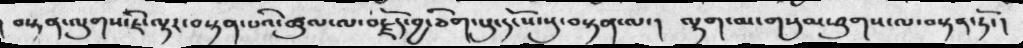བསྟན་ལུགས་ཇི་ལྟར་བསྟན་པའི་ཚུལ་ལ་བརྗོད་བྱ་ཅིག་པུ་དངོས་སུ་བསྟན་ལ་། ལྷག་མ་གསུམ་ཕུགས་ལ་བསྟན་ཏོ་།
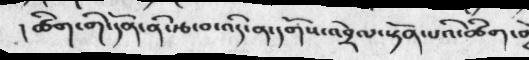།ཚིག་གི་དོན་ནི་རྩ་བ་འདི་ན་དགོས་འབྲེལ་སྟོན་པའི་ཚིག་
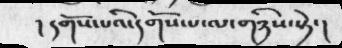།དགོས་པའི་དགོས་པ་ལ་གཉིས་སྟེ་།
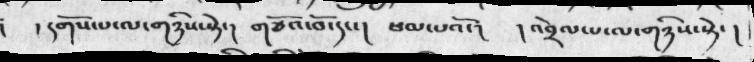། དགོས་པ་ལ་གཉིས་སྟེ་།  གཙོ་བོ་དང་།  སྦམ་པའོ་། །འབྲེལ་པ་ལ་གཉིས་སྟེ་།
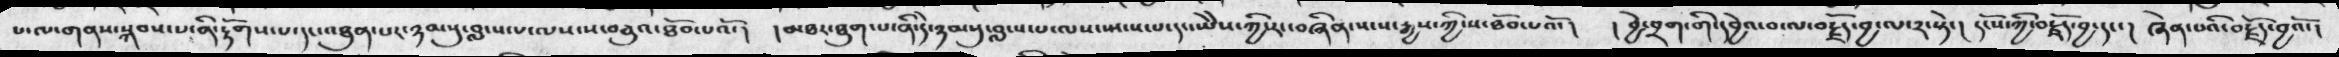པ་ལ་གནས་སྐབས་པ་ནི་རྟོགས་པ་དང་འཐུན་པ་ཉམསུ་བླངས་པ་ལས་ས་བཅུའ་ཐོབ་པའོ་།  །མཐར་ཐུག་པ་ནི་དེ་ཉམསུ་བླངས་པ་ལས་སྤངས་པ་དང་ཡཻས་ཀྱི་རང་བཞིན་སངས་རྒྱས་ཀྱི་ས་ཐོབ་པའོ་། ། བྱེ་བྲག་གི་དབྱེ་བ་ལ་བརྗོད་བྱ་ལ་༢་སྟེ་། དངོས་ཀྱི་བརྗོད་བྱ་དང་། ཞེན་པའི་བརྗོད་བྱའོ་།
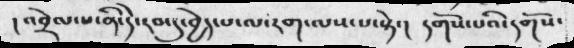།འབྲེལ་པ་ནི་དེ་རབ་དུ་བྱེད་པ་ལ་རག་ལས་པ་སྟེ་། དགོས་པའི་དགོས་
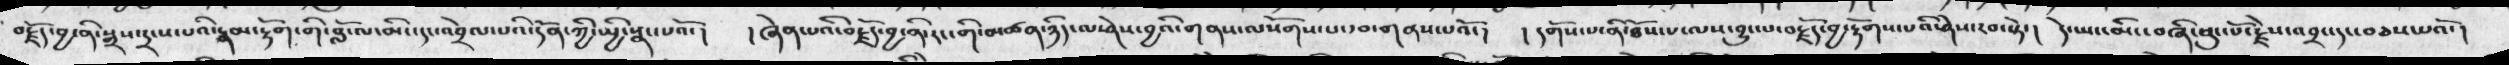བརྗོད་བྱ་ནི་སྒྲས་དྲངས་པའི་རྣམ་རྟོག་གི་བློ་ལ་མིང་དང་འབྲེལ་པའི་དོན་ཀྱི་སྤྱི་སྣང་པའོ་། །ཞེན་པའི་བརྗོད་བྱ་ནི་རང་གི་མཚན་ཉིད་ལ་ཤེས་བྱའི་གནས་ལསོགས་པ་རྩ་གནས་པའོ་། ། དགོས་པ་ནི་ཐོས་པ་ལས་བྱུང་པ་བརྗོད་བྱ་རྟོགས་པའི་ཤེས་རབ་སྟེ་།  དེ་ཡང་མིང་བཞི་ཕུང་པོ་རྗེས་འབྲང་དང་བཅས་པའོ་།
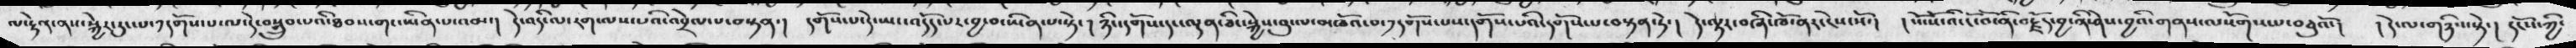ལ་རྟེན་ནས་སྐྱེར་རུང་པ་༡དགོས་པ་ལ་དེ་བསྒྲུབ་པའི་ཐབས་གང་ཡིན་པ་འམ་། དེ་འདི་ལ་རག་ལས་པའི་འབྲེལ་བ་བསྟན་། དགོས་པ་དེ་ཡང་འདོད་པར་བྱ་བ་ཡིན་པ་སྟེ་། ཉིང་དགོས་དང་ལྡན་ཅིང་སྐྱེ་བུ་ལ་མཁོའ་བ་༡དགོས་པས་དགོས་པའི་དགོས་པ་བསྟན་ཏེ་། དེ་ལྟར་བཞི་ཁོ་ནར་ངེས་སོ་། །སོ་སོའི་ངོ་བོ་ནི་བརྗོད་བྱ་ནི་ཤེས་བྱའི་གནས་ལསོགས་པ་བཅུའོ་། །དེ་ལ་གཉིས་སྟེ་། དངོས་ཀྱི་
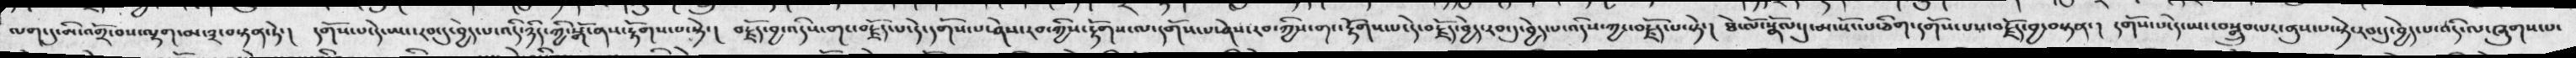ལག་དུ་མི་འགྲོ་བས་ལྷག་མ་༣་བསྟན་ཏེ་།  དགོས་པ་དེ་ཡང་རབ་དུ་བྱེད་པ་འདི་ཉིད་ཀྱི་སྒོ་ནས་རྟོགས་པ་སྟེ་།  བརྗོད་བྱ་འདིས་གང་བརྗོད་པ་དེ་དགོས་པ་ཤེས་རབ་ཀྱིས་རྟོགས་ལ་དགོས་པ་ཤེས་རབ་ཀྱིས་གང་རྟོགས་པ་དེ་བརྗོད་བྱེད་རབ་དུ་བྱེད་པ་འདིས་ཀྱང་བརྗོད་པ་སྟེ་།  ཐེ་ལོ་སྣོལ་དུ་མ་སོང་པ་ཅིག་དགོས་པས་བརྗོད་བྱ་བསྟན་། དགོས་པ་དེ་ཡང་བསྒྲུབ་པར་ནུས་པ་སྟེ་རབ་དུ་བྱེད་པ་འདི་ལ་ཞུགས་པ་
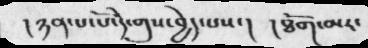།ཉན་པ་པོ་དེ་གུས་བྱེད་པས་།  །ཐོག་མར་
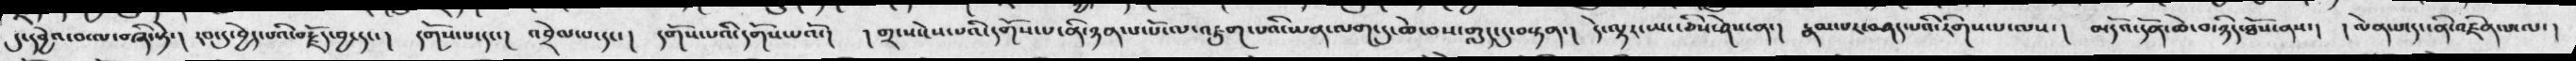དུ་དབྱེའ་བ་ལ་བཞི་སྟེ་། རབ་དུ་བྱེད་པའི་བརྗོད་བྱ་དང་། དགོས་པ་དང་། འབྲེལ་པ་དང་། དགོས་པའི་དགོས་པའོ་། །གྲངས་ངེས་པའི་དགོས་པ་ནི་ཉན་པ་པོ་ལ་འཇུག་པའི་ཡན་ལག་དུ་ཆེ་བས་གླད་དུ་བསྟན་། དེ་ལྟ་ཡང་ཅིས་ཤེས་ན་། རྣམ་པར་བཤད་པའི་རིག་པ་ལས་། མདོའ་དོན་ཆེ་བ་ཉིད་ཐོས་ནས་། །ལེན་པ་དང་ནི་འཛིན་པ་ལ་།
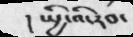།སྤྱི་འི་རབ་
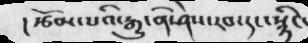།རྩོམ་པའི་རྒྱུ་ནི་ཤེས་རབ་དང་སྙིང་
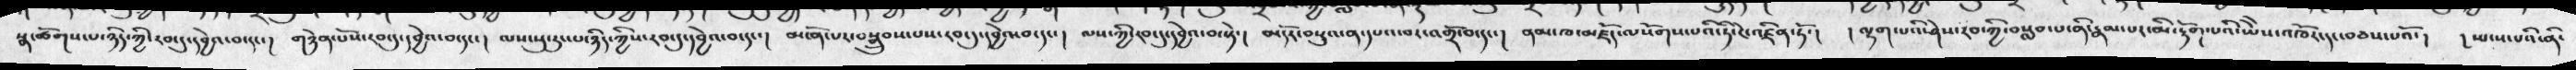སྣ་ཚོགས་པ་ཉིད་ཀྱི་རབ་དུ་དབྱེ་བ་དང་།  གཉེན་པོས་རབ་དུ་དབྱེའ་བ་དང་།  ལས་སུ་རུང་པ་ཉིད་ཀྱིས་རབ་དུ་དབྱེ་བ་དང་།  མངོན་པར་བསྒྲུབས་པས་རབ་དུ་དབྱེའ་བ་དང་།  ལས་ཀྱི་རབ་དུ་དབྱའ་བ་སྟེ་།  མདོར་བསྡུའ་ན་དཔའ་བར་འགྲོ་བ་དང་།  ནམ་ཁ་མཛོད་ལསོགས་པའི་ཏིང་ངེ་འཛིན་ཏོ་།  ། ལྷག་པའི་ཤེས་རབ་ཀྱི་བསླབ་པ་ནི་རྣམ་པར་མི་རྟོག་པའི་ཡེེས་འཁོར་དང་བཅས་པའོ་།  ། སྤངས་པའི་ནི་
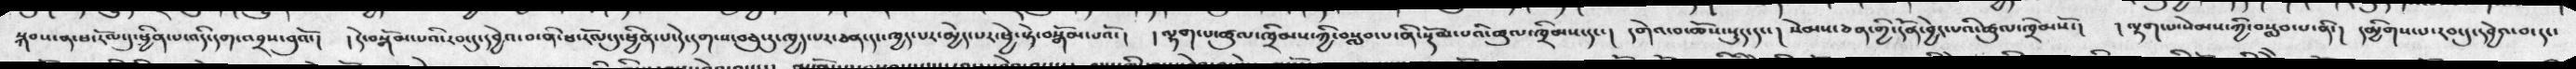སྐབས་ན་ཕ་རོལ་དུ་ཕྱིན་པ་འདི་དག་འབྲས་བུའོ་།   ། དེ་བསྒོམ་པའི་རབ་ཏུ་དབྱེའ་བ་ནི་ཕ་རོལ་དུ་ཕྱིན་པ་དེ་དག་ས་བཅུ་རུ་ཁྱད་པར་ཅན་དང་ཁྱད་པར་མེད་པར་མྱེད་པར་ཕྱེ་སྟེ་བསྒོམ་པའོ་།  ། ལྷག་པ་ཚུལ་ཁྲིམས་ཀྱི་བསླབ་པ་ནི་སྡོམ་པའི་ཚུལ་ཁྲིམས་དང་།   དགེ་བ་ཆོས་སྡུད་དང་   སེམས་ཅན་གྱི་དོན་བྱེད་པའི་ཚུལ་ཁྲིམསོ་།    ། ལྷག་པ་སེམས་ཀྱི་བསླབ་པ་ནི་།   དམྱིགས་པ་རབ་དུ་དབྱེའ་བ་དང་
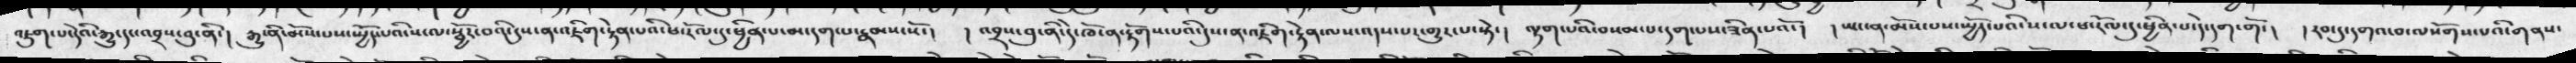འཇུག་པ་དེའི་རྒྱུ་དང་འབྲས་བུ་ནི་།   རྒྱུ་ནི་མོས་པས་ཡྱོད་པའི་ས་ལ་སྦྱོང་བའི་དུས་ན་འཇིག་རྟེན་པའི་ཕ་རོལ་དུ་ཕྱིན་པ་མ་དག་པ་རྣམས་སོ་།  ། འབྲས་བུ་ནི་དེ་ཁོ་རྟོགས་པའི་དུས་ན་འཇིག་རྟེན་ལས་འདས་པར་གྱུར་པ་སྟེ་།   ལྷག་པའི་བསམ་པ་དག་པས་ཟིན་པའོ་།  ཡང་ན་མོས་པས་ཡྱོད་པའི་ས་ལ་ཕ་རོལ་དུ་ཕྱིན་པ་དེ་དག་གོ་།   ། རབ་དུ་དགའ་བ་ལསོགས་པའི་གནས་
